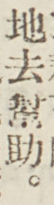地去幫助。
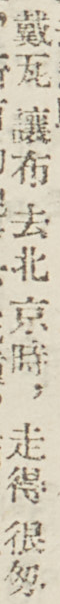戴瓦讓布去北京時，走得很匆
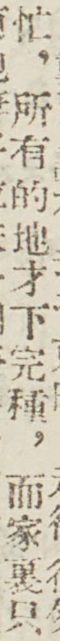忙，所有的地才下完種，而家裏只
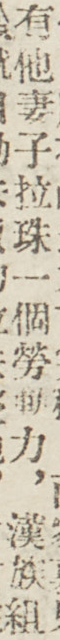有他妻子拉珠一個勞動力，漢族組
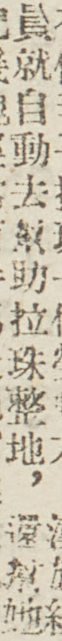員就自動去幫助拉珠整地，還幫她
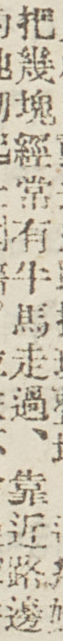把幾塊經常有牛馬走過、靠近路邊
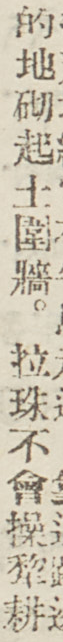的地砌起土圍牆。拉珠不會操犂耕
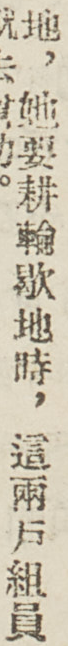地，她要耕輪歇地時，這兩戶組員
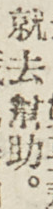就去幫助。
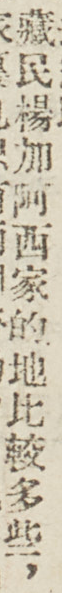藏民楊加阿西家的地比較多些，
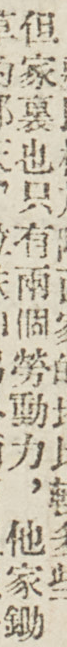但家裏也只有兩個勞動力，他家鋤
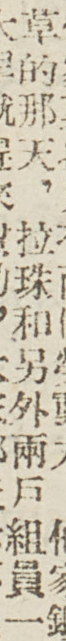草的那天，拉珠和另外兩戶組員一
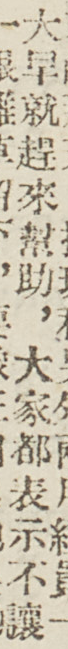大早就趕來幫助，大家都表示不讓
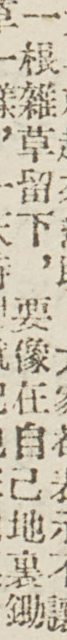一根雜草留下，要像在自己地裏鋤
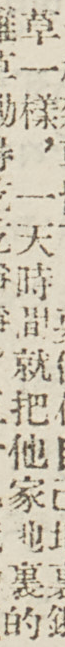草一樣，一天時間就把他家地裏的
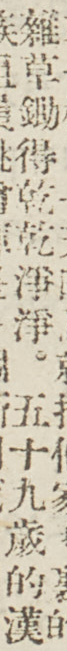雜草鋤得乾乾淨淨。五十九歲的漢
